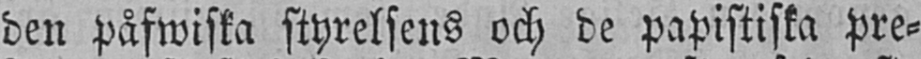den påfwiska styrelsens och de papistiska pre-
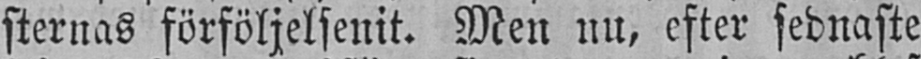sternas förföljelsenit. Men nu, efter sednaste
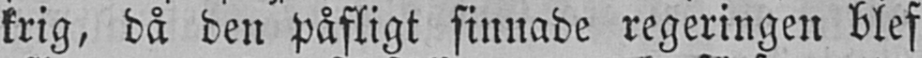krig, då den påfligt sinnade regeringen blef
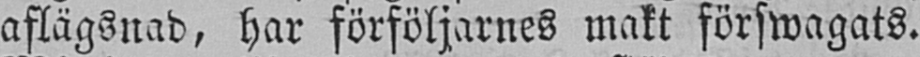aflägsnad, har förföljarnes makt förswagats.
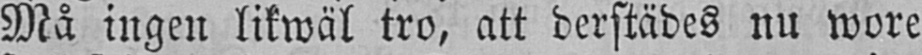Må ingen likwäl tro, att derstädes nu wore
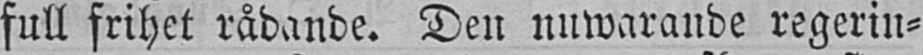full frihet rådande. Den nuwarande regerin-
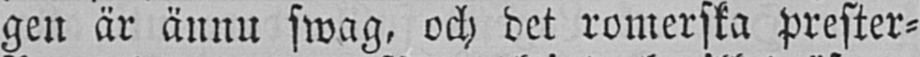gen är ännu swag, och det romerska prester-
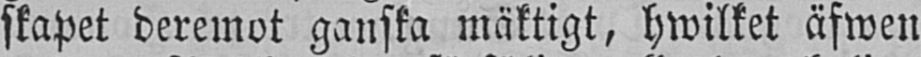skapet deremot ganska mäktigt, hwilket äfwen
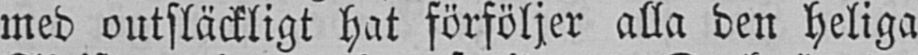med outsläckligt hat förföljer alla den heliga
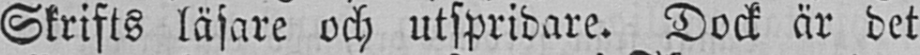Skrifts läsare och utspridare. Dock är det
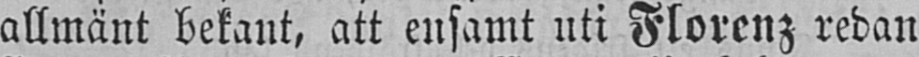allmänt bekant, att ensamt uti Florenz redan
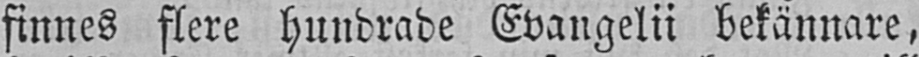finnes flere hundrade Evangelii bekännare,
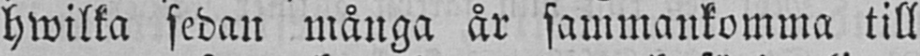hwilka sedan många år sammankomma till
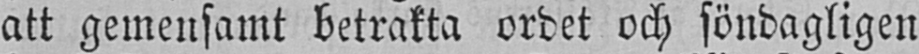att gemensamt betrakta ordet och söndagligen
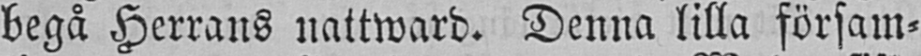begå Herrans nattward. Denna lilla försam-
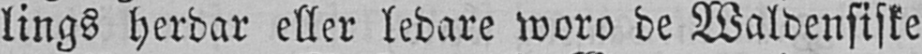lings herdar eller ledare woro de Waldensiske
